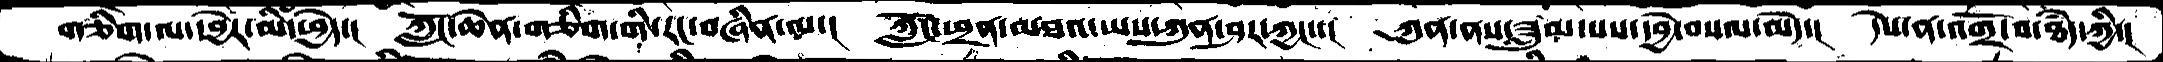གཅིག་ལ་དབྱེར་མི་ཕྱེད་།  ཀློང་ཆེན་གཅིག་གི་རང་བཞིན་ལ་།  ཀློང་ཕྲན་མཐའ་ཡས་ཀུན་ཤར་ཀྱང་།  ཀུན་ནས་ཟླུམ་པས་དབྱེ་བསལ་མེད་།  དེས་ན་འགྲོ་བ་ཐཾད་ཀྱི་།
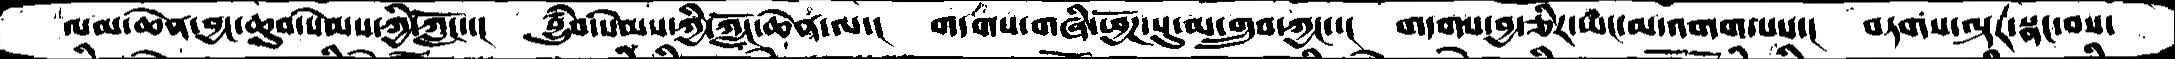ལམ་ཆེན་བྱང་ཆུབ་སེམསཀྱི་ཀློང་་།  བྱུཾབ་སེམས་ཀྱི་ཀློང་ཆེན་ལ་།  གདགས་གཞི་ཕྱོཌ་སུ་མ་གྲུབ་ཀྱང་།  གདགས་བྱ་ཅིར་ཡང་མ་འགག་པས་།  བཏགས་ལྟར་སྣང་བས་
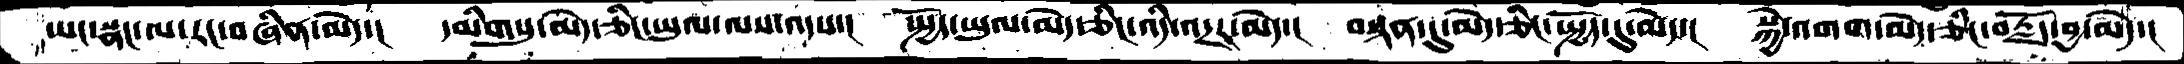ཡང་སྣང་ལ་རང་བཞིན་མེད་།   དམིགསུ་མེད་ཅིང་ཡུལ་ལས་འདས་།   སྤྱོད་ཡུལ་མེད་ཅིང་འདི་འདྲར་མེད་།   བསྟན་དུ་མེད་ཅིང་སྤྱོད་དུ་མེད་།   སྐྱེ་འགག་མེད་ཅིང་བརྗོད་བྱ་མེད་།
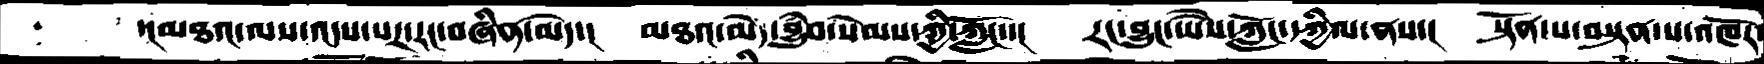་།མཐའ་ལས་འདས་པར་རང་བཞིན་མེད་།  མཐའ་མེད་བྱུཾབ་སེམས་ཀྱི་ཀློང་་།  རང་བྱུང་ཡཻས་ཀློང་དཀྱིལ་ནས་།  སྟོན་པ་བསྟན་པ་འཁོར་
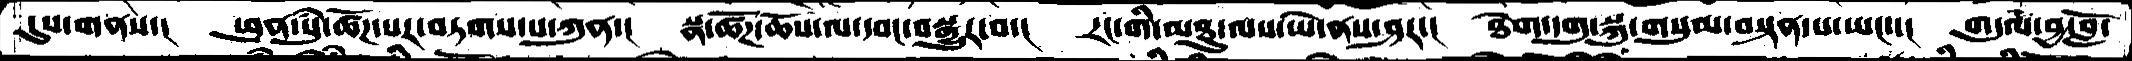དུས་གནས་།  ཕུན་སུཾ་ཚོཌ་པར་བཏགས་པ་ཀུན་།  སྣ་ཚོཌ་ཆོས་ལ་དབང་བསྒྱུར་བ་།  རང་གི་མཐུ་ལས་ཡེ་ནས་ཤར་།  ཐེག་དགུ་སྐུ་གསུམ་བསྟན་པ་ཡང་་།  གདུལ་བྱ་བློ་
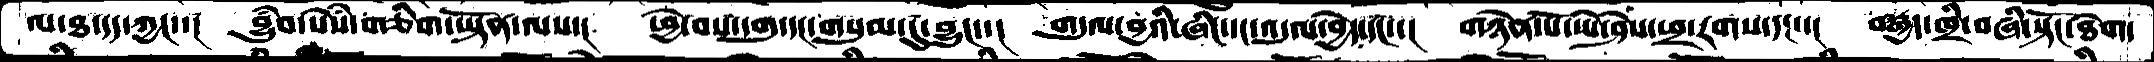ལ་ཐ་དད་ཀྱང་་།   བྱུཾབ་སེསཾ་གཅིག་ཡྟོན་ལས་།   ཕྱེ་བས་དགུ་དང་གསུམ་དུ་བྱུང་་།  གདུལ་བྱའི་ཞིང་དང་འདུལ་བྱེད་དང་་།   གཉེན་པོ་ཡེ་ཤེས་ཕྲ་རགས་དང་་།   བརྒྱད་ཁྲི་བཞི་སྟོང་ཐེག་
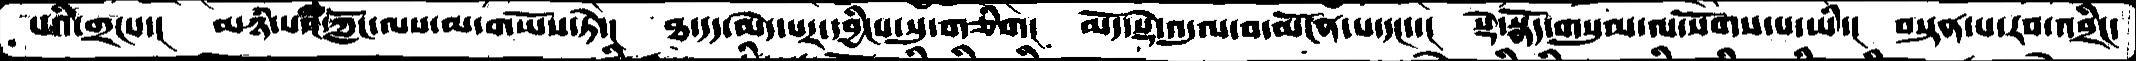པའི་གྲངས་།   མཉཾ་པའི་ཀློང་ལས་མ་གཡོས་ཏེ་།   ཐ་དད་མེད་པར་དབྱིངས་སུ་གཅིག།  མདོ་སྡེ་འདུལ་བ་མངོན་པ་དང་་།   སྡེ་སྣོད་གསུམ་ལ་སོགས་པ་ཡི་།  བསྟན་པ་རབ་འབྲིང་
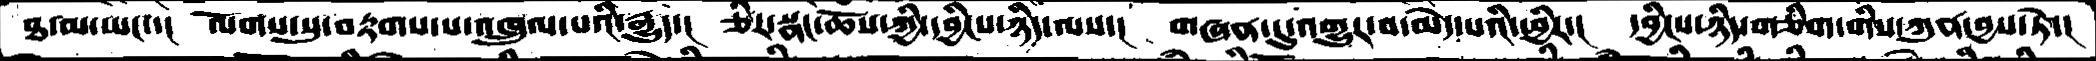ཐ་མ་ཡང་་།  ལོགས་སུ་བརྟགས་པ་འཁྲུལ་པའི་རྒྱུད་།  ཅིར་སྣང་ཆོས་ཀྱི་དབྱིངས་ཉིད་ལས་།   གཞན་དུ་འགྱུར་བ་མེད་པའི་ཕྱིར་།   དབྱིངས་ཉིད་གཅིག་གིས་ཀུན་བྱས་ཏེ་།
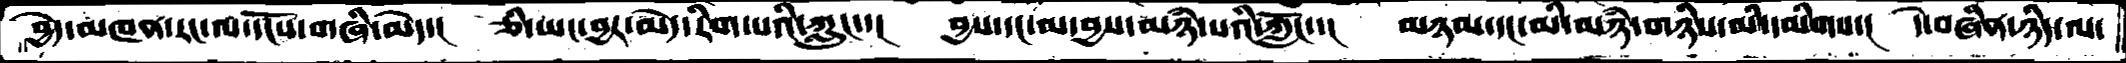བྱེད་མཁན་རང་ལ་དངོས་གཞི་མེད་།  ཅི་ཡང་བྱར་མེད་རིག་པའི་ཀླུང་་།   བྱས་དང་མ་བྱས་མཉཾ་པའི་ཀློང་་།   མཉམ་དང་མི་མཉཾ་གཉིས་མི་དམིགས་།   དེ་བཞིན་ཉིད་ལ་
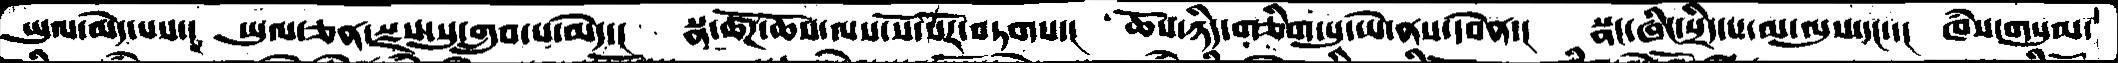ཡུལ་མེད་པས་།  ཡུལ་ཅན་སྫས་སུ་གྲུབ་པ་མེད་།   སྣ་ཚོཌ་ཆོས་ལས་སོ་སོར་བཏགས་།   ཆོས་ཉིད་གཅིག་པུ་ཡེ་ནས་དབེན་།   སྣང་ཞིང་སྲིད་པ་མ་ལུས་དང་་།  ཁཾས་གསུམ་
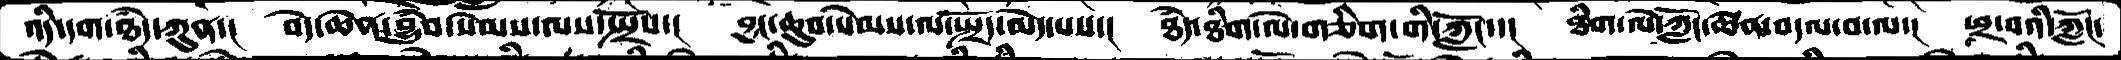འདི་དག་ཐཾད་ཀུན་།  བདེ་ཆེན་བྱུཾབ་སེམས་ལས་སྤྲོས་།  བྱང་ཆུབ་སེམས་ལ་སྤྲོད་མེད་པས་།  ཐཾད་ཐིག་ལེ་གཅིག་གི་ཀློང་་།  ཐིག་ལེ་ཀློང་ཆེན་བདལ་བ་ལ་།  ཕྲ་བའི་ཀློང་
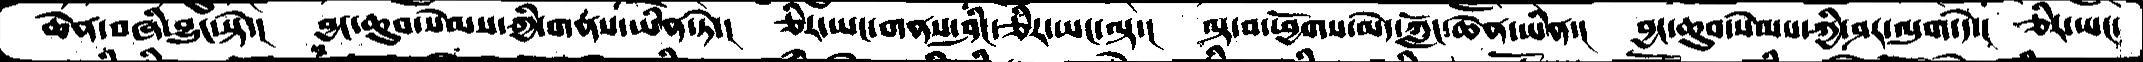ཆེན་བཞི་བྱུང་སྟེ་།  བྱང་ཆུབ་སེམས་ཀྱི་གནས་ཡིན་ཏེ་།  ཅིར་ཡང་གནས་ཤིང་ཅིར་ཡང་ལྟ་།  ལྟ་བ་ཕྱོགས་མེད་ཀློང་ཆེན་ཡིན་།  བྱང་ཆུབ་སེམས་ཀྱི་ཤར་ལུག་དེ་།  ཅིར་ཡང་
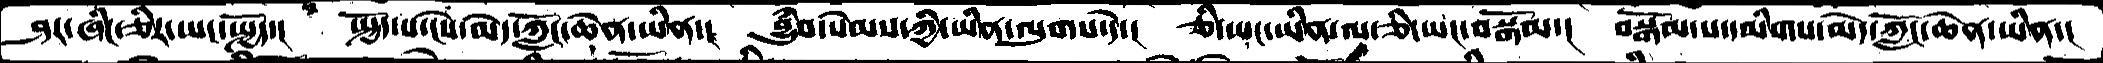ཤར་ཞིང་ཅིར་ཡང་སྤྱོད་།  སྤྱོད་པ་ངེས་མེད་ཀློང་ཆེན་ཡིན་།  བྱུཾབ་སེམས་ཀྱི་ཡིན་ལུགས་དེ་།  ཅི་ཡང་ཡིན་ལ་ཅི་ཡང་བསྒོམ་།  བསྒོམ་པ་དམིགས་མེད་ཀློང་ཆེན་་ཡིན་།
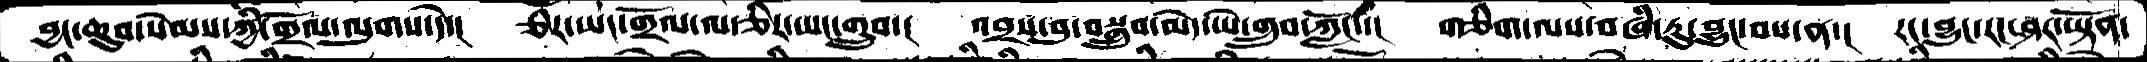བྱང་ཆུབ་སེམས་ཀྱི་གྲོལ་ལུགས་དེ་།  ཅིར་ཡང་གྲོལ་ལ་ཅིར་ཡང་གྲུབ་།  འབྲས་བུ་བསྒྲུབ་མེད་ཡེ་གྲུབ་ཀློང་་།  གཅིག་ལས་བཞི་རུ་བྱུང་བས་ན་།  རང་བྱུང་རང་ཤར་ཡྟོན་
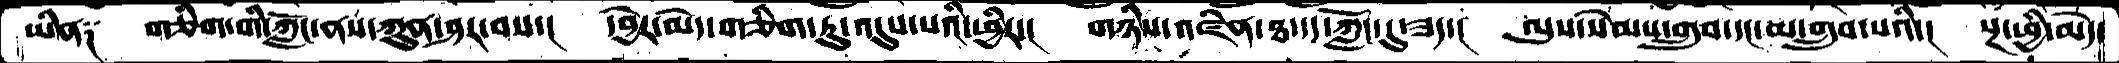ཡིན༑   གཅིག་གི་ཀློང་ནས་ཀུན་ཤར་བས་།  དབྱེར་མེད་གཅིག་ཏུ་འདུས་པའི་ཕྱིར་།  གཉིས་འཛིན་ཐ་དད་ཀློང་དུ་ཟད་།  ལུས་སེམས་གྲུབ་དང་མ་གྲུབ་པའི་།  སྔ་ཕྱི་མེད་
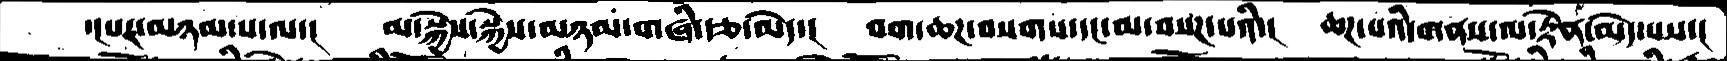་།པར་མཉམ་པ་ལ་།    མ་སྐྱེས་་སྐྱེས་མཉམ་གཞི་རྩ་མེད་།   བག་ཆཌ་བསགས་དང་མ་བསཌ་པའི་།   ཆཌ་པའི་གནས་ལ་རྟེན་མེད་པས་།
